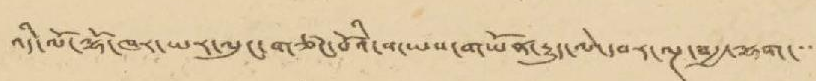འདི་ལོ་ལྷོ་ཁར་ཡར་ལུང་གཙང་པོའི་གཡས་གཡོན་རྒྱུད་ལེ་དབར་ལྔ་བརྒྱ་ལྷག་་་་
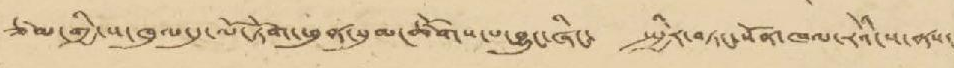ཙམ་གྱི་ས་ཁུལ་དུ་ལོ་ཏོག་ཕུན་སུམ་ཚོགས་པ་བྱུང་ཞིང་ སྤྱིར་བཏང་སོན་ཁལ་རེའི་ས་ནས་
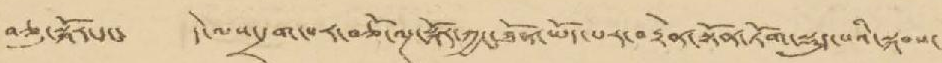བཅུ་སྐོར་དང་ དེ་ལས་དྲག་པར་བཅོ་ལྔ་སྐོར་ཀྱང་ཐོན་ཡོད་པར་བརྟེན་སྟོན་ཏོག་སྡུད་པའི་སྐབས་
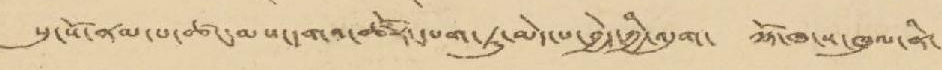སུ་སོ་ནམ་པ་ཚང་མས་དགའ་ཚོར་དཔག་ཏུ་མེད་པ་བྱེད་ཀྱི་འདུག་ ལྷོ་ཁ་ས་ཁུལ་ནི་
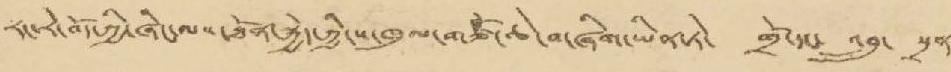རང་རེ་བོད་ཀྱི་ཞིང་ལས་ཐོན་སྐྱེད་ཀྱི་ས་ཁུལ་གཙོ་ཆེ་བ་ཞིག་ཡིན་ཏེ་ གྲོ་དང་ འབྲུ་ སྲན་
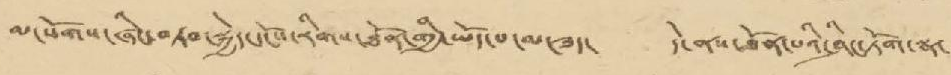མ་སོགས་ཞིང་བཏབ་སྐྱེད་དངོས་རིགས་ཐོན་གྱི་ཡོད་པ་མ་ཟད་ དེ་ནས་ཐོན་པའི་ཤིང་ཏོག་སྣ་
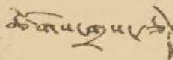ཚོགས་གྲས་རྩེ
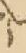ད
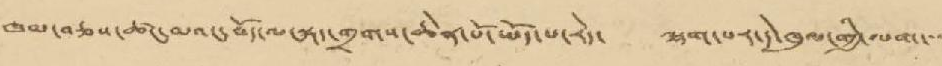ཁམ་བཅས་ཚང་མའང་བོད་ལ་སྐད་གྲགས་ཆེན་པོ་ཡོད་པ་རེད་ ལྷག་པར་དེ་ཁུལ་གྱི་ལག་་་་
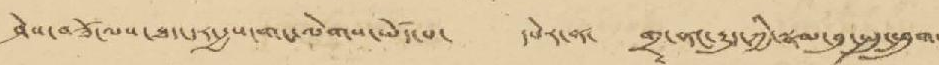ཤེས་བཟོ་ལས་ཐད་དར་རྒྱས་གང་ལེགས་ཡོད་ དཔེར་ན་ གྲྭ་ན་རྒྱུད་ཀྱི་སྣམ་བུ་སྤུ་ཕྲུག་
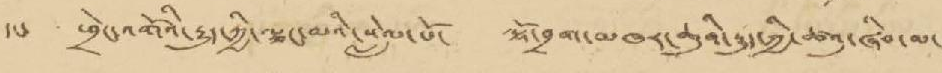དང་ ཕྲེང་འགོའི་རྒྱུད་ཀྱི་ལྕང་མའི་སླེལ་པོ་ ལྷོ་བྲག་མཁར་ཆུའི་རྒྱུད་ཀྱི་ཚའུ་ཞིབ་མ་
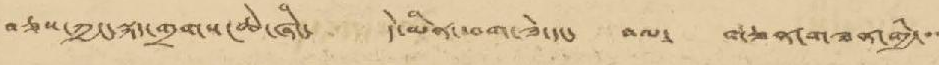བཅས་ཀྱང་སྐད་གྲགས་ཆེ་ཞིང་ དེ་མིན་བག་ཟེ་དང་ བལ་ གཅན་གཟན་གྱི་་་་
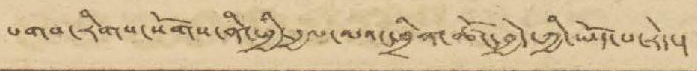པགས་རིགས་སོགས་ནི་ཕྱི་རྒྱལ་ལའང་ཕྲིན་ཚོང་བྱེད་ཀྱི་ཡོད་ཨཔ་རེད་།
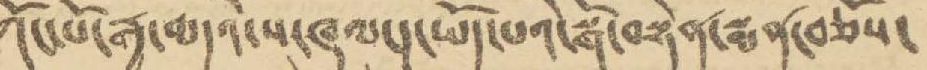ཀོང་པོ་རྒྱ་མདའི་ས་ཁུལ་དུ་ཡོད་པའི་སྒོ་བསྟེན་སྨན་བཅོས་
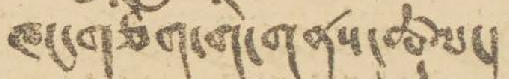ཁང་གཅིག་གི་གནས་ཚུལ་།
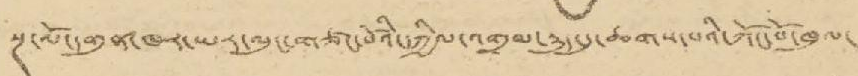སྔ་ལོ་དགུན་ཡར་ལུང་གཙང་པོའི་དཀྱིལ་འགྲམ་རྒྱུད་དུ་ཆགས་པའི་ཀོང་པོ་ཁུལ་
